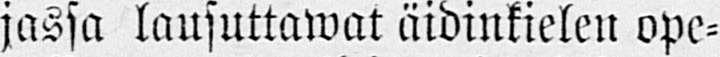jassa lausuttawat äidinkielen ope-
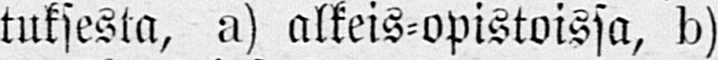tuksesta, a) alkeis-opistoissa, b)
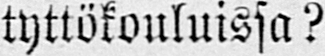tyttökouluissa?
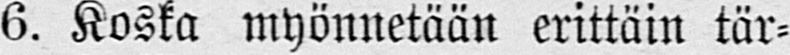6. Koska myönnetään erittäin tär-
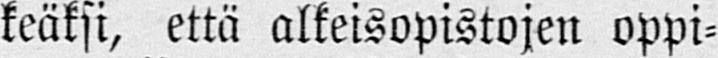keäksi, että alkeisopistojen oppi-
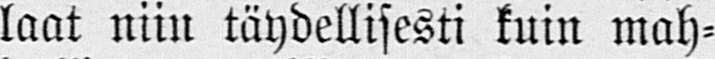laat niin täydellisesti kuin mah-
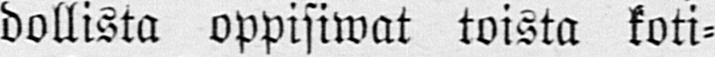dollista oppisiwat toista koti-
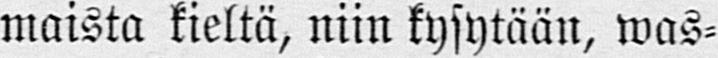maista kieltä, niin kysytään, was-
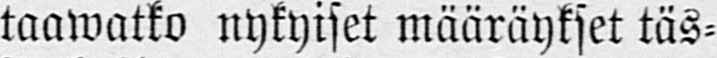taawatko nykyiset määräykset täs-
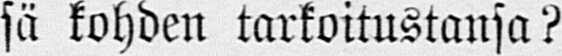sä kohden tarkoitustansa?
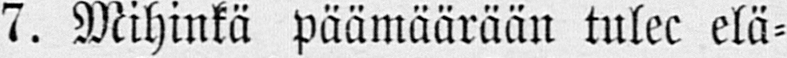7. Mihinkä päämäärään tulee elä-
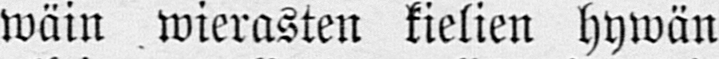wäin wierasten kielien hywän
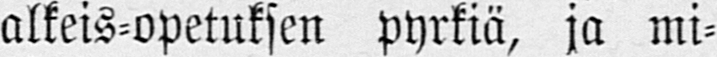alkeis-opetuksen pyrkiä, ja mi-
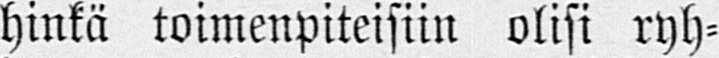hinkä toimenpiteisiin olisi ryh-
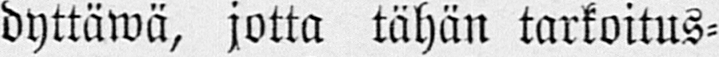dyttäwä, jotta tähän tarkoitus-
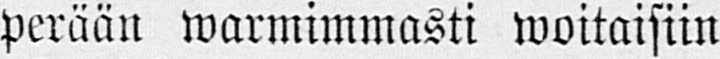perään warmimmasti woitaisiin
